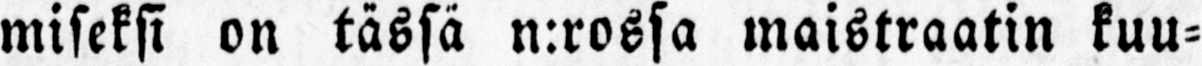miseksi on tässä n:rossa maistraatin kuu-
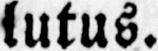lutus.
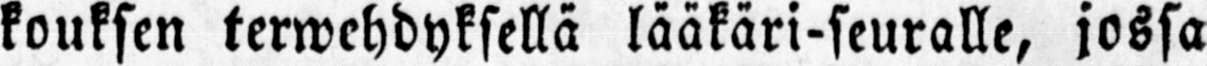kouksen terwehdyksellä lääkäri-seuralle, jossa
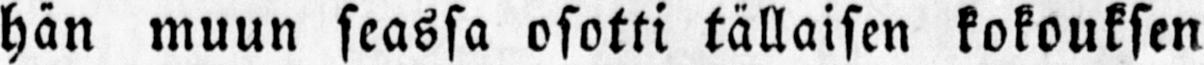hän muun seassa osotti tällaisen kokouksen
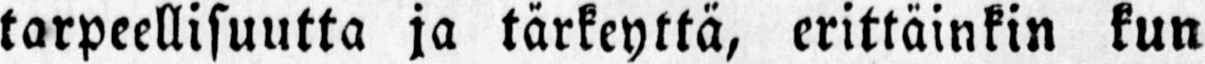tarpeellisuutta ja tärkeyttä, erittäinkin kun
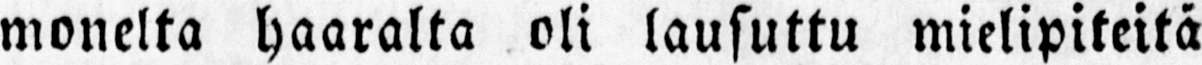monelta haaralta oli lausuttu mielipiteitä
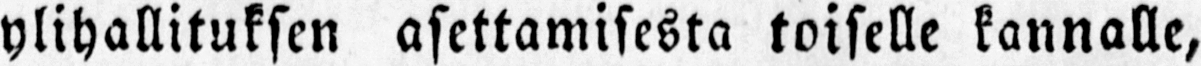ylihallituksen asettamisesta toiselle kannalle,
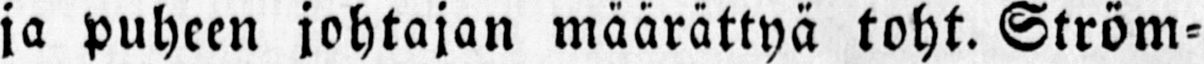ja puheen johtajan määrättyä toht. Ström-
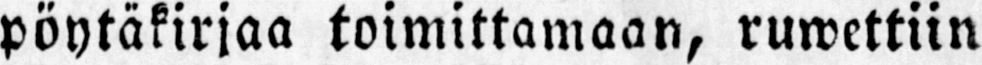pöytäkirjaa toimittamaan, ruwettiin
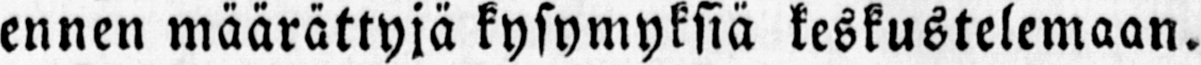ennen määrättyjä kysymyksiä keskustelemaan.
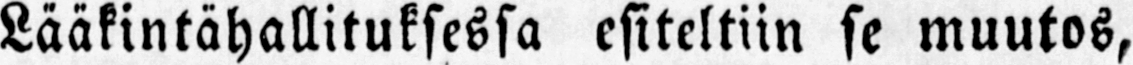Lääkintähallituksessa esiteltiin se muutos,
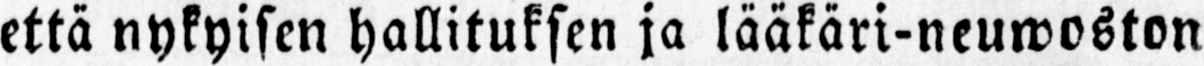että nykyisen hallituksen ja lääkäri-neuwoston
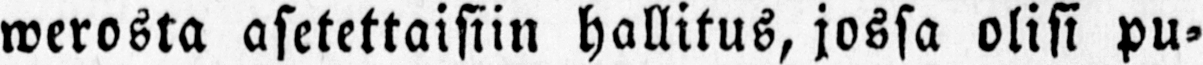werosta asetettaisiin hallitus, jossa olisi pu-
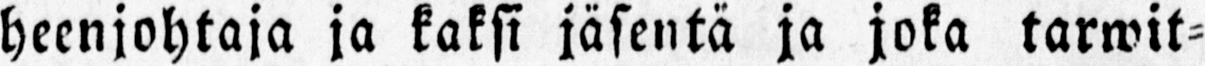heenjohtaja ja kaksi jäsentä ja joka tarwit-
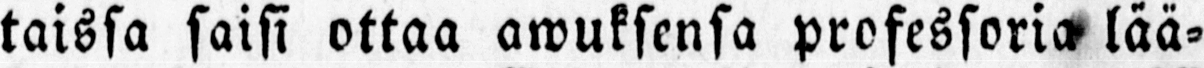taissa saisi ottaa awuksensa professoria lää-
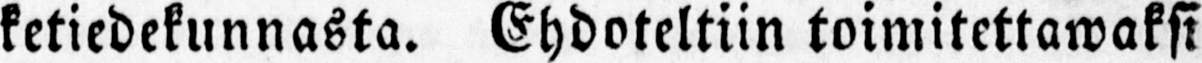ketiedekunnasta. Ehdoteltiin toimitettawaksi
